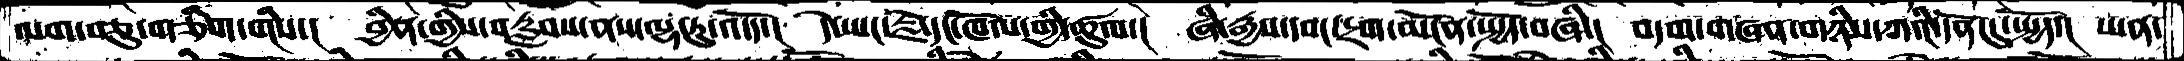ལག་བཅུ་གཅིག་གིས་།  བྱིན་གྱིས་བརླབས་ནས་ལྷ་རུ་འདོད་།  དེ་ཡང་རྗེ་དང་ཁོལ་གྱི་ཚུལ་།  ཞི་རྒྱས་དབང་དྲག་མངོན་སྤྱོད་བཞི་།  བདག་གཞན་གཉིས་ཀའི་དོན་དུ་སྤྱོད་།  ཡན་
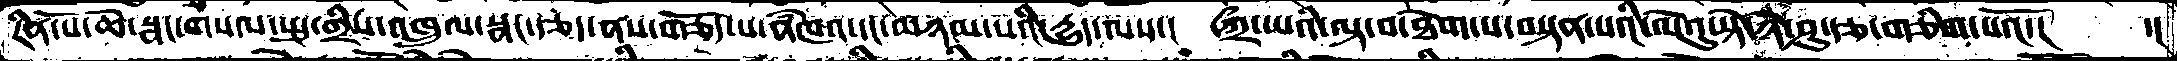རིན་པོ་ཆེ་སྣང་གསལ་སྤུ་གྲིས་འཁྲུལ་སྣང་རྩད་ནས་གཅོད་པ་ནཾཁའ་དང་མཉམ་པའི་དྱུད་ལས་།  ཀྲྀ་ཡའི་ལྟ་བ་ཐེག་པ་བསྟན་པའི་ལེའུ་སྟེ་ཉི་ཤུ་རྩ་གཅིག་པའོ་།  ་།
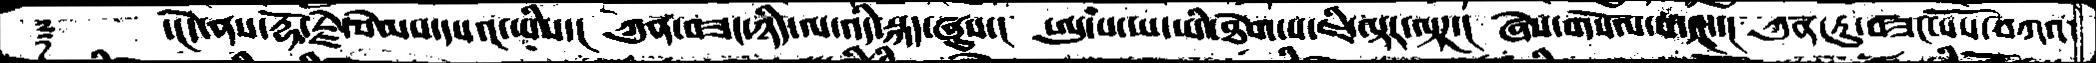༈   ་།དེ་ནས་རྡོ་རྗེ་སེམས་དཔའ་ཡིས་།  ཀུན་བཟང་ཉིད་ལ་འདི་སྐད་ཞུས་།  ཨུ་པ་ཡ་ཡི་ཐེག་པ་ཇི་ལྟར་ལཌ་།  ཞེས་གསོལ་པ་དང་་།  ཀུན་ཏུ་བཟང་པོས་བཀའ་
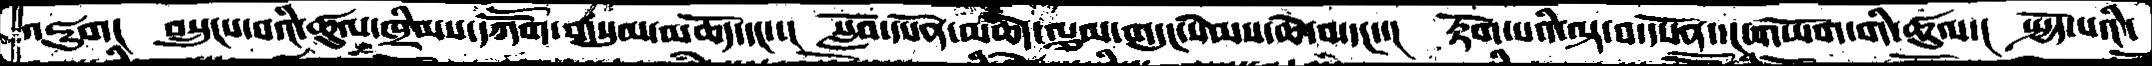འཇུག།  བསྲུངས་བའི་ཚུལ་ཁྲིམས་དཀཽག་གསུམ་མཆོད་དང་་།  སློབ་དཔོན་མཆེད་ལྕམ་གདུང་སེམས་ཆེ་བ་དང་་།  རྟོག་པའི་ལྟ་བ་དཔོན་དང་གཡོག་གི་ཚུལ་།  སྤྱོད་པའི་
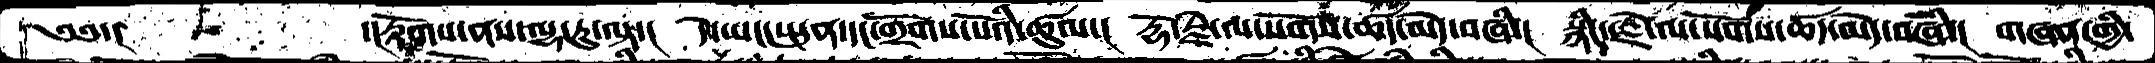༄༅་།         ་།རྟོགས་ནས་ལྷ་རུ་ལྟ་།  དེ་ཡང་སྤུན་དང་གྲོགས་པོའི་ཚུལ་།  རྡོ་རྗེ་ལ་སོགས་ཚད་མེད་བཞི་།  སྙིང་རྗེ་ལ་སོགས་ཚད་མེད་བཞི་།  གཞན་གྱི་
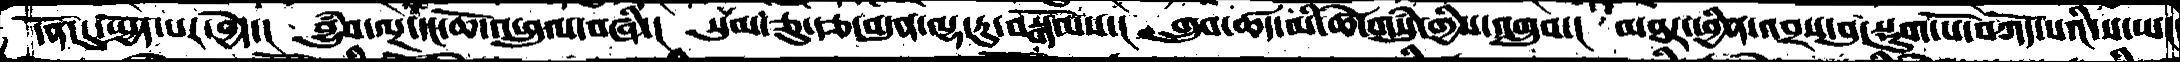དོན་དུ་སྤྱོད་པར་བྱེད་།  བྱུཾབ་ལྔ་དང་ཆོ་འཕྲུལ་བཞི་།  སུམ་ཅུ་རྩ་བདུན་ལྷ་རུ་བསྒོམས་།  གྲུབ་ཚད་མི་ཚེ་གསུཾ་གྱིས་འགྲུབ་།  མཐར་ཕྱིན་འབྲས་བུ་སྡུག་པོ་བཀོད་པའི་ས་ཡང
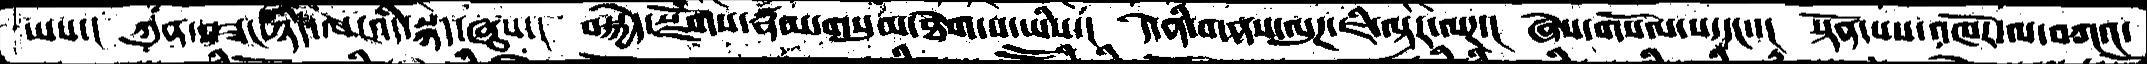ཡས་།  ཀུན་བཟང་ཉིད་ལ་འདི་སྐད་ཞུས་།  བསྐྱེད་སྫོགས་རྣམ་གསུམ་ཐེག་པ་ཡིས་།  དེ་ནི་གནས་ལུཌ་ཇི་ལྟར་ལཌ་།  ཞེས་གསོལ་པ་དང་་།  སྟོན་པས་འཁོར་ལ་བཀའ་
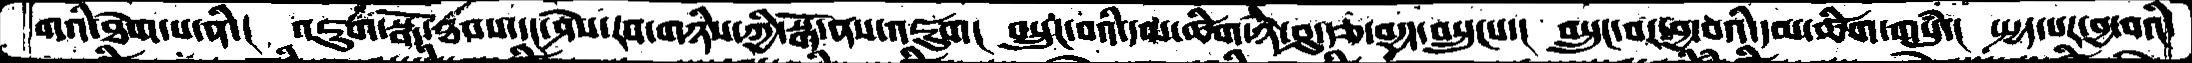གའི་ཐེག་པ་ནི་།  འཇུག་སྒོ་ཐབས་དང་ཤེས་རབ་གཉིས་ཀྱི་སྒོ་ནས་འཇུག།  བསྲུང་བའི་དམ་ཚིག་ཉི་ཤུ་རྩ་བདྱད་བསྲུངས་།  བསྲུང་བར་བྱ་བའི་དམ་ཚིག་གསུཾ་།  སྤྱད་པར་བྱ་བའི་
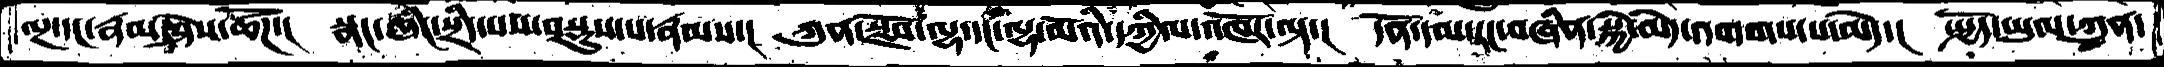ལྔ་དང་རྣམ་ཤེས་ཚོཌ་།  སྣང་ཞིང་སྲིད་པས་བསྡུས་པ་རྣམས་།  ཀུན་སྫོབ་ལྷ་དང་ལྷ་མོའི་དཀྱིལ་འཁོར་ལྟ་།  དོན་དམ་རང་བཞིན་སྐྱེ་མེད་འགགས་པ་མེད་།  སྤྱོད་ཡུལ་ཀུན་
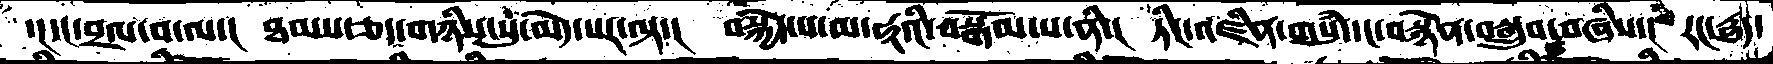དངདང་བྲལ་བ་ལ་།  ཐམས་ཅད་གཉིས་སུ་མེད་པར་ལྟ་།  བསྐྱེད་པ་མ་ཧཱའི་བསྒོམ་པ་ནི་།  ཏིང་འཛིན་གསུཾ་དང་བསྙེན་བསྒྲུབ་བཞིས་།  རང་དྱུད་
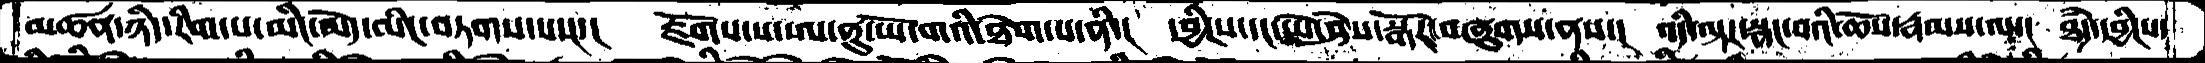མཚན་ཉིད་རིག་པ་མིང་མེད་མིང་བཏགས་པས་།  སྫོགས་པ་ཨ་ནུ་ཡོ་གའི་ཐེག་པ་ནི་།  དབྱིངས་དང་ཡེ་ཤེས་སྒོར་བཞུགས་ནས་།  འདི་ལྟར་སྣང་བའི་ཆོས་རྣམས་ལ་།  ཐདཾ་དབྱིངས་
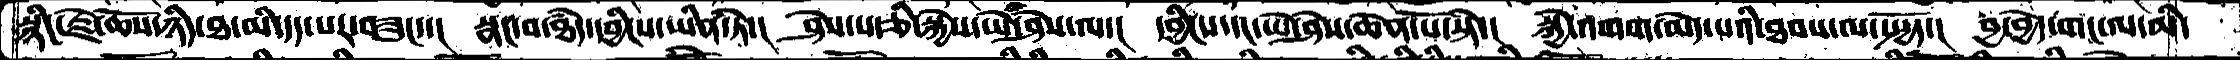སྙིང་རྗེ་ཆོས་ཉིད་ཐ་མི་དད་པར་བཟུང་་།  སྣང་བ་ཐཾད་དབྱིངས་ཡིན་ཏེ་།  ཤེས་པ་ཅི་སྐྱེས་ཡེ་ཤེས་ལ་།  དབྱིངས་དང་ཡེ་ཤེས་ཆེན་པོ་སྟེ་།  སྐྱེ་འགག་མེད་པའི་ཐབས་ལ་སྤྱོད་།  བྱ་བྱེད་གང་ལ་མི་
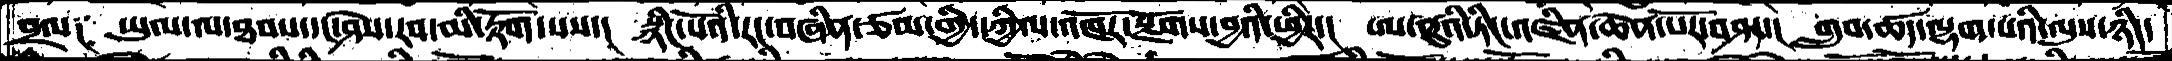བྲལ༑   ཡུལ་ལ་ཐབས་དང་ཤེས་རབ་མི་རྟོག་པས་།  སྙིང་པོའི་རང་བཞིན་ཙམ་གྱི་དཀྱིལ་འཁོར་སྫོགས་བྱའི་ཕྱིར་།  ཨ་ནུའི་ཏིང་འཛིན་ཆེན་པོར་བཤད་།  གྲུབ་ཚད་ལྷག་པའི་ལུས་ཉིད་
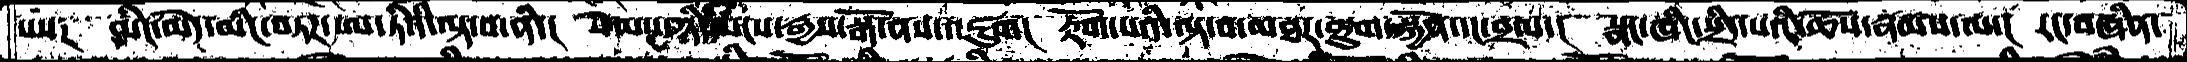པས༑  མིང་མེད་མིང་བཏཌ་ཨ་ཏིའི་ལྟ་བ་ནི་།  སེམས་ཉིད་སངས་རྒྱས་སྒོ་ནས་འཇུག།  རྟོག་པའི་ལྟ་བ་མཐར་ཐུག་སྐྱོན་དང་བྲལ་།  སྣང་ཞིང་སྲིད་པའི་ཆོས་རྣམས་ལ་།  རང་བཞིན་
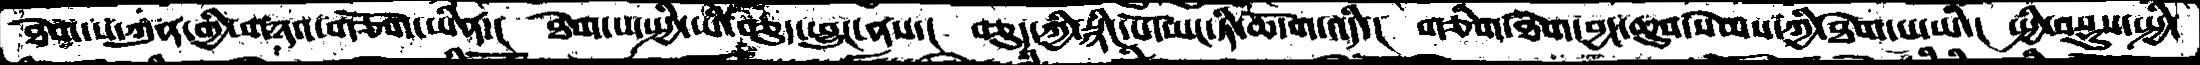ཐེག་པ་ཀུན་གྱི་གཉའ་གཅོག་ཡིན་།  ཐེག་པ་སྤྱི་ཡི་བཅུད་ཕྱུང་ནས་།  བཅུད་ཀྱི་སྙིང་པོ་ཡང་ཏི་ཆོ་ག་འདི་།  གཅིག་ཐེག་བྱང་ཆུབ་སེམས་ཀྱི་ཐེག་པ་ཡི་།  སྤྱི་བསྡུས་སྤྱི་
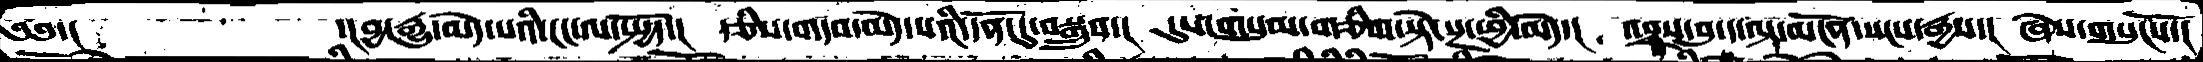༄༅་།        ་།བྱ་རྒྱུ་མེད་པའི་ངང་ལ་སྤྱོད་།  རྩིས་གདབ་མེད་པའི་དོན་དུ་བསྒྲུབ་།  དུས་གསུམ་གཅིག་སྟེ་སྔ་ཕྱི་མེད་།  འབྲས་བུ་ད་ལྟ་མངོན་སངས་རྒྱས་།  ཞེས་གསུངསོ་།
